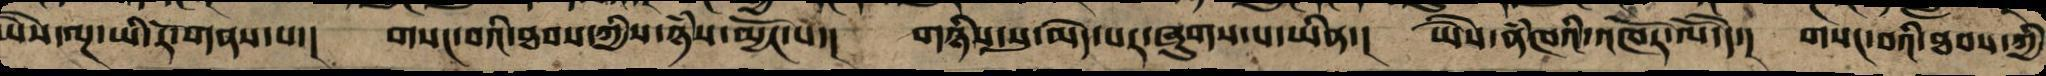ཡཻས་ལྔ་ཡི་རོ་གནས་པ་། གསང་བའི་ཐབས་ཀྱིས་ཉཾས་མྱོང་བ་། གཉིས་སུ་མེད་པར་ཞུགས་པ་ཡིན་། ཡཻས་ནཾཁའི་འཁོར་ལོ་དེ་། གསང་བའི་ཐབས་ཀྱི
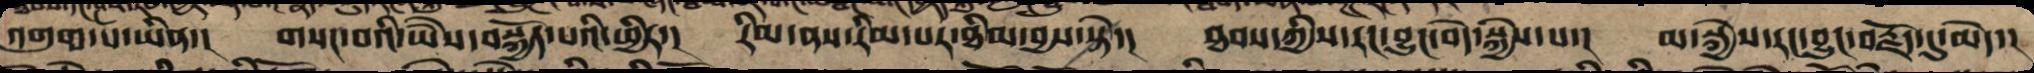འགུག་པ་ཡིན་།  གསང་བའི་ཡེཻས་བསྐྱོད་པའི་ཕྱིར་།  རིམ་ནས་རིམ་པར་ཐིམ་བྱས་སྟེ་།  ཐབས་ཀྱིས་རང་བྱུང་བདེ་སྐྱེས་པ་།  མ་སྐྱེས་རང་བྱུང་བརྗོད་དུ་མེད་།
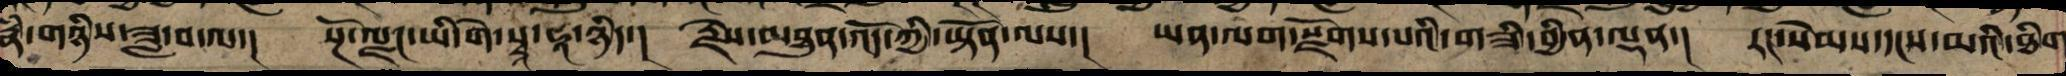རྣཾ་གཉིས་ཟླ་བ་ལ་། སྔོ་ལྗང་ཡི་གེ་སྭཱ་ཧཱ་ཉིད་། རྗེས་མཐུན་འོད་ཀྱི་ཡྟོན་ལས་། ཡན་ལག་སྫོགས་པའི་གཟི་བྱིན་ལྡན་། རང་སེམས་དངས་མའི་ཐིག
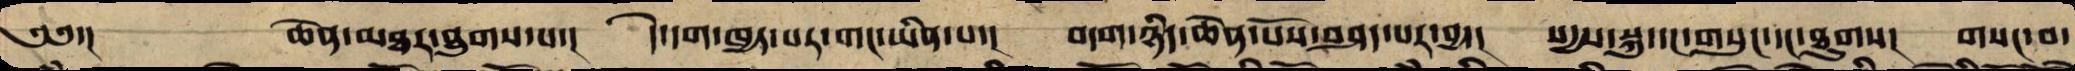༄༅་། ཆེན་མཐར་ཐུག་པ་། དེ་དག་ཁྱད་པར་གང་ཡིན་པ་། བདག་ཉིད་ཆེན་པོས་བཤད་པར་བྱ་། སདྱས་སྐུ་དང་གསུང་དང་ཐུགས་། གསང་བ་
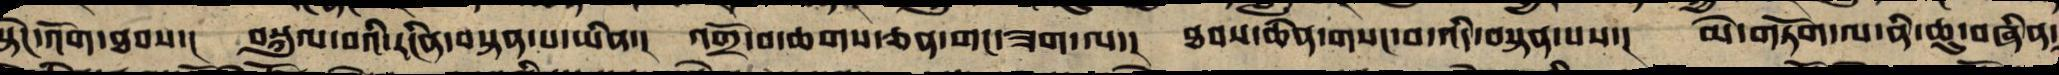སྟེང་འོག་ཐབས་། བསྐུལ་བའི་རངིན་བསྟན་པ་ཡིན་། འགྲོ་བ་ཆགས་ཅན་གང་ཟག་ལ་། ཐབས་ཆེན་གསང་བ་འདི་བསྟན་པས་། མེ་ཏོག་ལ་ནི་ཆུ་བཞིན་
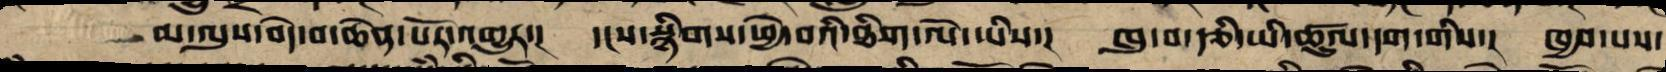མ་ལུས་བདེ་བ་ཆེན་པོར་འགྱུར་།  དངས་སྙིགས་ཕྱེ་བའི་ཐིག་ལེ་ཡིས་།  ཁུ་བ་རྩི་ཡི་ཚུལ་དག་གིས་།  ཁྱབ་པས་
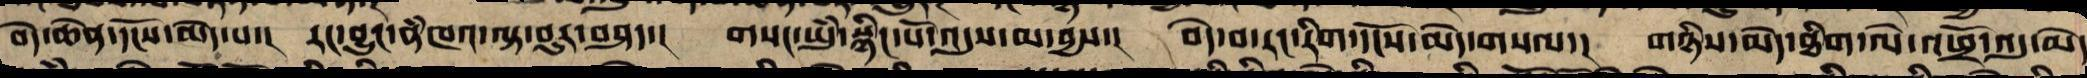བདེ་ཆེན་དངོས་མེད་པ་། རང་བྱུང་ནཾཁའ་ལྟ་བུར་བཤད་། གསང་ཡུཾ་སྙིང་པོ་འདུས་མ་བྱས་། བདེ་བ་རང་རིག་དངོས་མེད་གསལ་། གཉིས་མེད་ཐིག་ལེ་འཕྲོ་འདུ་མེད
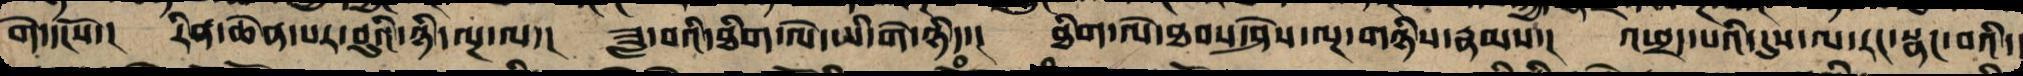གེ་དངོས་།  རིན་ཆེན་པར་བུའི་ཉི་ལྔ་ལ་།  ཟླ་བའི་ཐིག་ལེ་ཡི་གེ་ཉིད་།  ཐིག་ལེ་ཐབས་ཤེས་ལྔ་གཉིས་རྣམས་།  འཕྲད་པའི་དུས་ལ་རང་སྣང་བའི་།
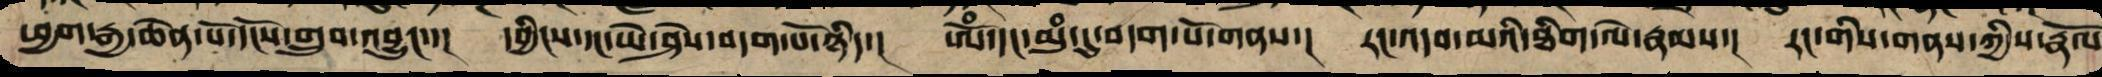ཕྱག་རྒྱ་ཆེན་པོ་དངོས་གྲུབ་འབྱུང་་།  དབྱིངས་དང་ཡེ་ཤེས་བདག་པོ་ཉིད་།  ཨོཾ་དང་མུཾ་དུ་བདག་པོ་གནས་།  རང་འདབ་མའི་ཐིག་ལེ་རྣམས་།  རང་གིས་གནས་ཀྱིས་རྣོལ
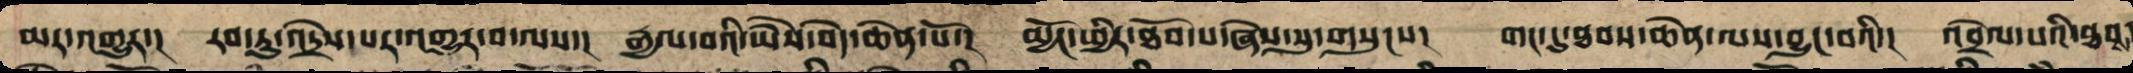མར་འགྱུར་།  རབ་ཏུ་འདྲེས་པར་འགྱུར་བ་ལས་།  རྒྱལ་བའི་ཡཻས་བདེ་ཆེན་པོ་།  མྱོང་ཕྱིར་ཐོབ་པ་ཞེས་སུ་གསུངས་།  གང་དུ་ཐབས་ཆེན་ལས་བྱུང་བའི་།  འབྲེལ་བའི་ཐབས
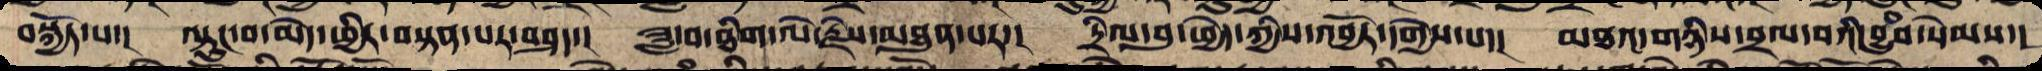བསྐྱོད་པ་།  ལྟུང་བ་མེད་ཕྱིར་བསྟན་པར་བཤད་།  ཟླ་བ་ཐིག་ལེ་རྗེས་མཐུན་པར་།  དྲིལ་བུ་ཕྱེད་ཀྱིས་འབྱོར་དགྱེས་པ་།  མཐའ་གཉིས་བྲལ་བའི་བྱུཾབ་སེམས་།
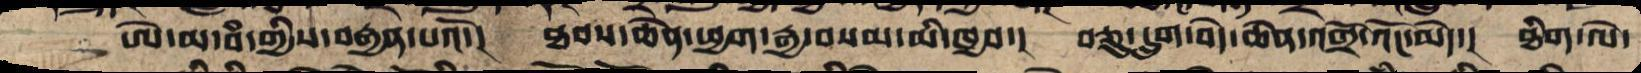ཨེ་ལ་བཾ་གྱིས་བརྒྱན་པའོ་།  ཐབས་ཆེན་ཕྱག་རྒྱ་བསམ་མི་ཁྱབ་།  བཅུ་དྲུག་བདེ་ཆེན་འགྲོ་འོང་མེད་།  ཐིག་ལེ་
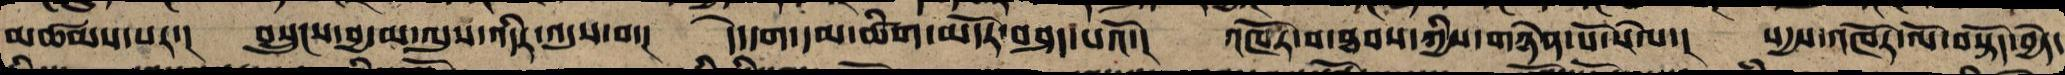འཚམས་པར་། བསྲུང་བྱ་མ་ལུས་འདིར་འདུས་པ་། དེ་དག་དམ་ཚིག་མདོར་བཤད་པའོ་། འཁོར་བ་ཐབས་ཀྱིས་གཉེན་པོ་སེལ་། སདྱས་འཁོར་ལོ་བསྟོད་བྱེད་
